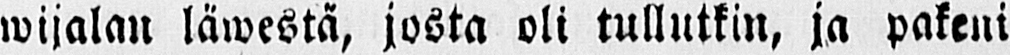wijalan läwestä, josta oli tullutkin, ja pakeni
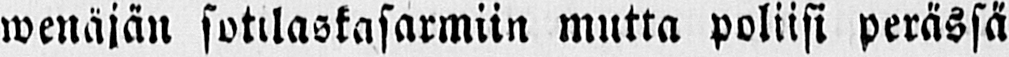wenäjän sotilaskasarmiin mutta poliisi perässä
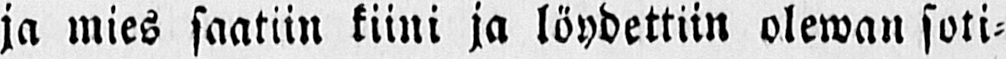ja mies saatiin kiini ja löydettiin olewan soti-
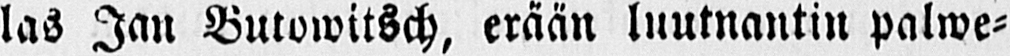las Jan Butowitsch, erään luutnantin palwe-
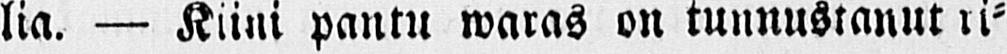lia. — Kiini pantu waras on tunnustanut ri-
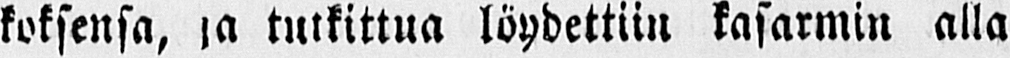koksinsa, ja tulkittua löydettiin kasarmin alla
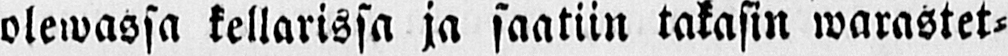olewassa kellarissa ja saatiin takasin warastet-
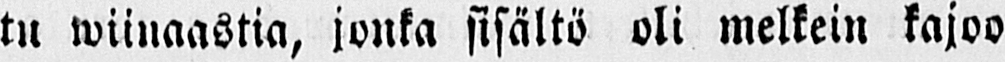tu wiinaastia, jonka sisältö oli melkein kajoo
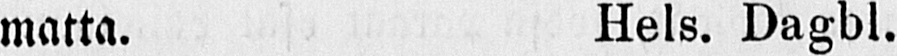matta. Hels. Dagbl.
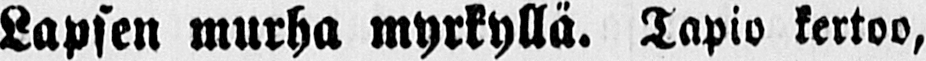Lapsen murha myrkyllä. Tapio kertoo,
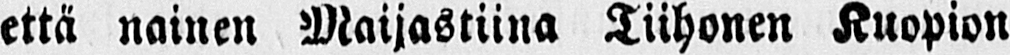että nainen Maijastiina Tiihonen Kuopion
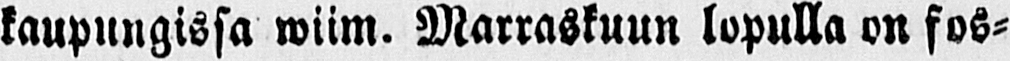kaupungissa wiim. Marraskuun lopulla on fos-
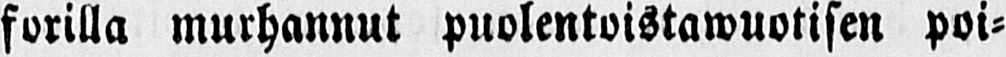forilla murhannut puolentoistawuotisen poi-
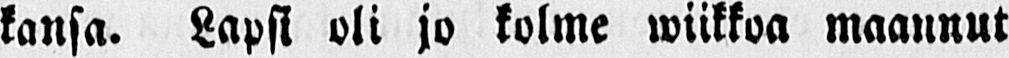kansa. Lapsi oli jo kolme wiikkoa maannut
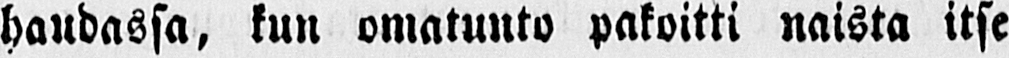haudassa, kun omatunto pakoitti naista itse
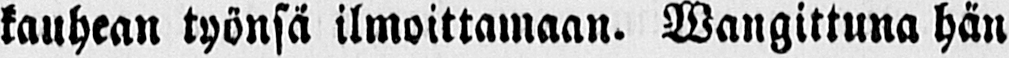kauhean työnsä ilmoittamaan. Wangittuna hän
